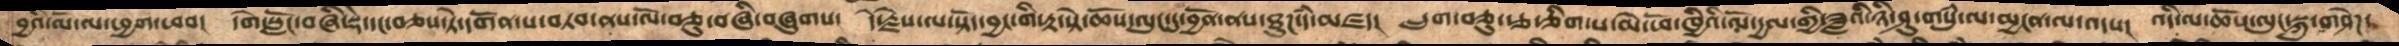བྱའི་ལོ་ལ་ཕྱག་ཕབ།  དགེ་སློང་བཞི་སྡེ་དང་བཅས་ཏེ་དགོན་པ་བཏབ་ནས་ལོ་བཅུ་བཞི་བཞུགས།  དེ་རྗེས་ལ་སྟོད་བྱང་གི་རྟ་སྟེ་ཆོས་ལུང་དུ་བྱོན་ནས་ཐུཌ་དཾ་མཛད།  དྲུག་བཅུ་རྩ་ཅིག་པ་མེ་ཕོ་ཁྱིའི་ལོ་དྱལ་གྱི་ཟླའི་ཉི་ཤུ་གསུཾ་ལ་མྱངན་ལ་འདས།  འདི་ལ་ཆོས་ལུང་སྐུ་གཤེཌ་
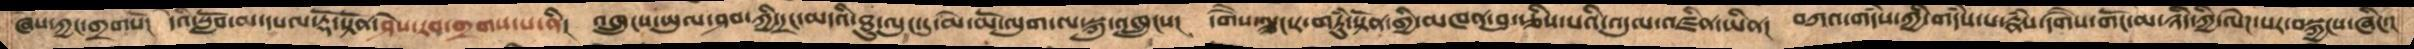ཞེས་ཀྱང་གྲགསོ།  དེའི་སློབ་མ་དཔལ་རྡོ་སྟོན་ཤེས་རབ་གྲགས་པ་ནི།  འཁྲུངས་ཡུལ་ཤབ་ཀྱི་དྲང་མདའི་ཐུ་ལུང་དུ་མེ་མོ་ལུག་ལ་སྐུ་འཁྲུངས།  དགཻས་ལྕང་ར་གཏུཾ་སྟོན་གྱི་མཁན་བུ་རྩིས་པའི་འདུལ་འཛིན་ཡིན།  བཀའ་གདཾས་ཀྱི་གདཾས་པ་རྣཾས་དགཻས་གོང་མ་ཉིད་ཀྱི་ལེཌ་པར་བསྐྱངས་ཞིང་།
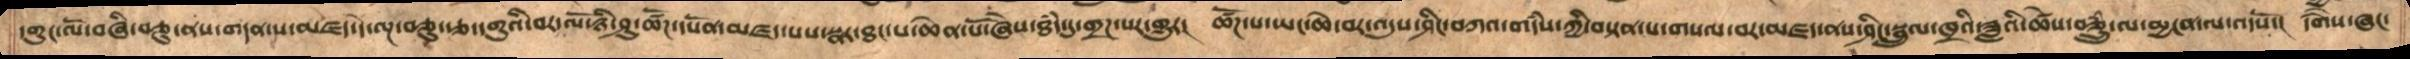དགུང་ལོ་བཞི་བཅུ་ནས་གདན་ས་མཛད་དེ་ལྔ་བཅུ་རྩ་དགུའི་བར་ལོ་ཉི་ཤུ་ཚོཌ་དཔོན་མཛད་པས་སྣར་ཐང་པ་ཆེན་པོ་ཞེས་ཐཾད་དུ་གྲཌ་པར་གྱུར།  ཚོཌ་པ་ཡང་ཆེ་བར་འདུས་ཤིང་བཀའ་གདཾས་ཀྱི་བསྟན་པ་གསལ་བར་མཛད་ནས་ཤིང་སྦྲུལ་ཁྲའི་ཟླའི་ཚེས་བཅྲུཾ་ལ་མྱངན་ལ་འདསོ་།  དགཻས་ཞང་
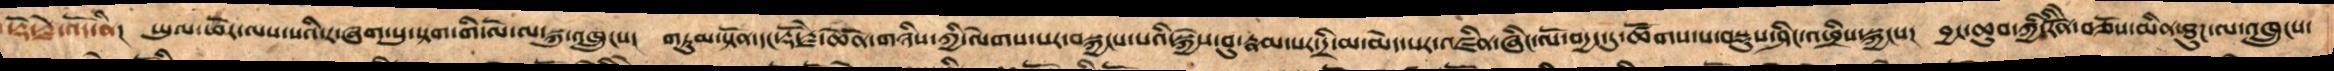་རྡོ་རྗེ་འོད་ནི།   ཡུལ་ཕོར་ལས་པའི་ར་ཞག་སུ་སྟག་གི་ལོ་ལ་སྐུ་འཁྲུངས།   གཏུམ་སྟོན་དདང་རྡོ་རྗེ་ཆེནོ་གཉིས་ཀྱི་ལེགས་པར་བསྐྱངས་པའི་སྐྱེས་བུ་རྣམ་པར་དྲི་མ་མེད་པར་འཛིན་ཞིང་ལོ་བདྱད་དུ་ཚོགས་པ་བསྡུས་ཤིང་འཕྲིས་སྐྱངས།  བྱང་ཆུབ་ཀྱི་རིནོི་བཅོས་མིན་ཐུཌ་ལ་འཁྲུངས་
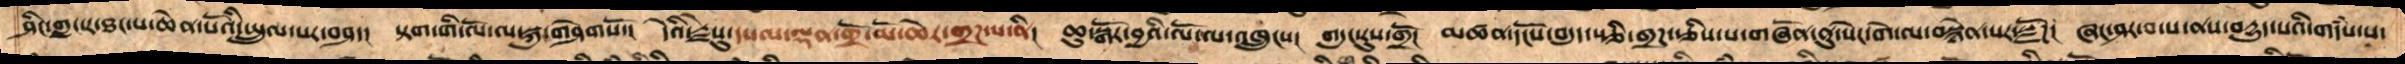ཤིང་གླང་ར་ཐང་པ་ཆེན་པོའི་སྤྲུལ་པར་བཤད།  སྟག་གི་ལོ་ལ་སྐུ་གཤེགསོ་།  དེའི་རྗེསུ་དཔལ་ལྡན་གྲོ་མོ་ཆེར་གྲཌ་པ་ནི།  ཆུ་སྒོར་བྱའི་ལོ་ལ་འཁྲུངས།  གདུང་རུས་་གྲོ།  མཚན་དོངས་བདུད་སྩི་གྲཌ་ཅིས་པ་གཞོན་ནུ་སེང་གེ་ལ་བསྙེན་པར་སྫོཌ།  ཞང་ཤར་བ་པ་ནསབདྱུད་པའི་གདཾས་པ་
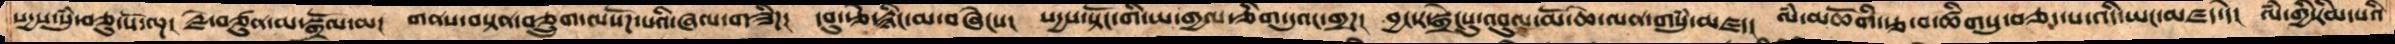སདྱས་་སུཾ་བཅུ་སོ་ལྔ།  རྗེ་བཙུན་མ་སྒྲོལ་མ།  གནས་བསྟན་བཅྲུག་ལསོཌ་པའི་ཞལ་གཟིཌ།  དབུ་རྩེ་རྙིང་མ་བཞེངས།  སདྱས་སྟོང་གི་ཡ་གྱལ་ཅིག་དུའང་གྲཌ།  བྱང་ར་སྒྲེངསུ་འབུལ་མོ་ཆེ་ལན་གསུཾ་མཛད། ལཾ་མཆོགི་རྩ་བ་ཚིགསུ་བཅད་པ་འདི་ཡང་མཛད་དེ།  ལཾ་གྱི་རིམ་པའི
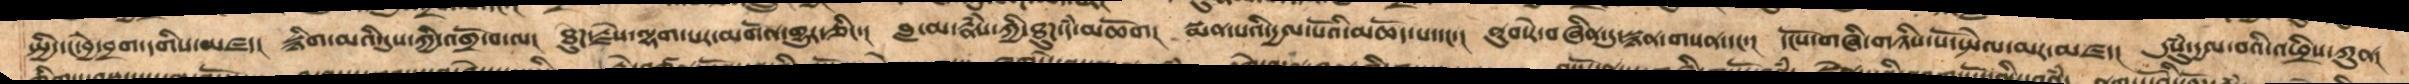སྤྱི་དང་བྱེ་བྲག་དགིས་མཛད།  སྙིག་མའི་དུས་ཀྱི་འགྲོ་བ་ལ།  ཐུཌ་རྗེས་ལྷག་པར་མགོན་གྱུར་ཅིང་།  བླ་མ་རྣཾས་ཀྱི་ཐུཌ་དཾ་མཆོག།  སྨན་པའི་དྱལ་པོའི་མཆོད་པ་དང་།  ནུབ་རེ་བཞིན་དུ་སྙན་གསན་དང་།   དངོས་གཞི་གཉིས་པོ་སྤེལ་མར་མཛད།  དུསུཾ་དྱལ་བའི་འཕྲིས་ཀུན།
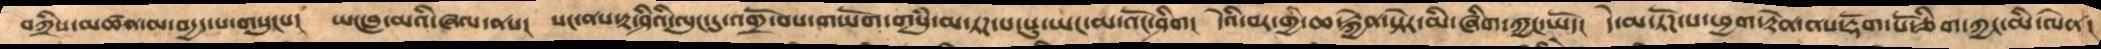བཀྲ་ཤིས་མཚན་མ་བདྱད་པ་གསུངས།  ཡང་བླ་མའི་ཞལ་ནས།  སང་ནས་རྟ་ཤིའི་ལུང་དུ་འགྲོ་བས་གཡོག་གསུཾ་མ་ཏཌ་པ་སུཡང་མ་འོང་ཤིག  དེའི་བར་གྱི་ཆ་རྐྱེན་སྟེར་མི་ཞིག་ཀྱང་ཡོད།  དེ་མ་ཏོཌ་པ་ཕྱག་རྟེན་ནས་རྡོག་པོ་ཅིག་ཀྱང་མི་ལེན།
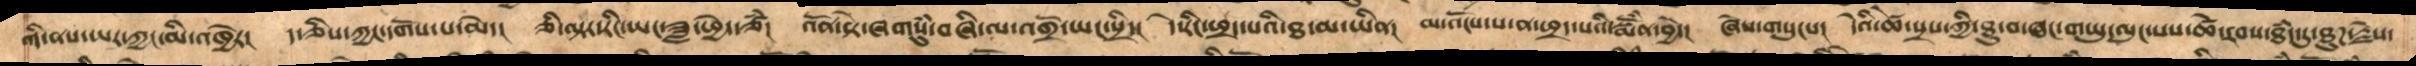གི་ནས་ཡར་ཀྱང་མི་འཁྱེར།  ད་ཅིས་ཀྱང་དགོས་པ་མེད།  ཅི་ལྟར་རིང་ཡང་ཟླ་ཕྱེད་ཙཾ།  འོན་སྟེ་ཞགསུཾ་བཞི་ལ་འགྲོ་ཡང་སྲིད།   དེ་རིང་ཕྲད་པའི་ཐ་མ་ཡིན།  མ་འོངས་པ་ན་ཕྲད་པའི་སྨོཾན་བྱེད།   ཞེས་གསུངས།  དེའི་ཚེ་སྲས་ཀྱི་ཐུ་བ་ཞང་གཡུ་ལུང་པས་ཚེ་རབས་ཐཾད་དུ་ཐུཌ་རྗེས་
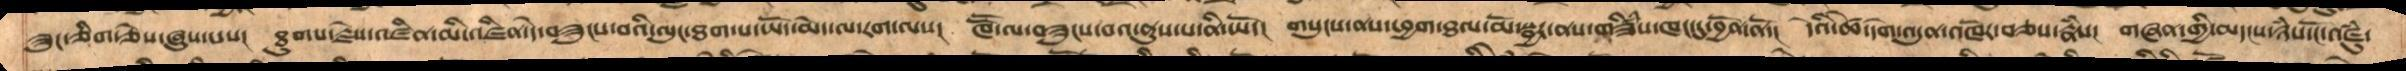ཟུང་ཅིག་ཅེས་ཞུས་པས།   ཐུགས་རྗེས་འཛིན་མི་འཛིན་དེ་བཟུངས་བའི་ལུང་ཐག་པ་ཡོད་མེད་ལ་རག་ལས།   ཁཽ་ལ་བཟུངས་བའ་ནུས་པ་ནི་ཡོད།   གསུངས་ནས་ཕྱག་ཐལ་མོ་སྦྱར་ནས་གཟིཾས་ཁང་དུ་བྱོན་ནོ་།   དེའི་ཚེ་དགེ་འདུན་འཁོར་བཅས་རྣཾས།   གཞན་གྱི་མདངས་ཉཾས་ངོ་འཛུཾ་
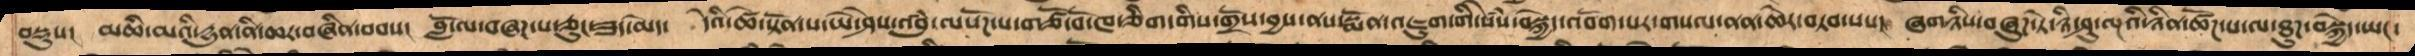བསྡུས།  མཆི་མའི་དྱུན་ནི་ཆར་བཞིན་བབས།  བློ་ལ་བཞཌ་པ་ཅུང་ཟད་མེད།  དེའི་ཚེ་སྟོན་པ་ཡཻས་འབུཾ་ལསོཌ་པ་གཙོ་བོ་ཁ་ཅིག་གིས་གྲོས་བྱས་ནས་སྨོན་འཇུག་གི་སེཾས་བསྐྱེད་འབོག་པར་གསལ་ནན་ཆེར་བཏབ་པས།  ཞགཉིས་བཞུཌ་ཏེ་ཉི་ཤུ་ལྔའི་ཉིན་ཚོཌ་པ་ལ་ཐུཌ་བསྐྱེད་ཡང་
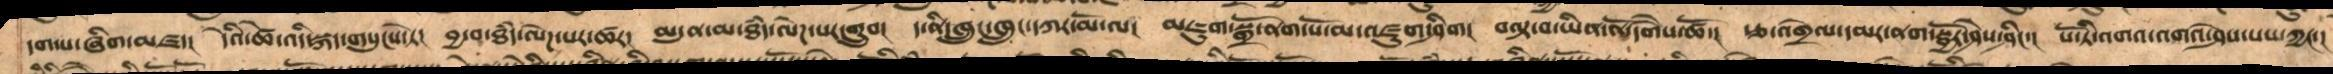དག་པ་ཞིག་མཛད།  དེའི་ཚེ་འདི་སྐད་གསུངས་ཏེ།  བྱ་བ་ཐཾད་ལེཌ་པར་ཚར།  མདུན་མ་ཐཾད་ལེཌ་པར་གྲུབ།  ད་ནི་ཁྲུང་ཁྲུང་དཀར་མོ་ལ།  མཇུག་སྒྲོ་ནག་པོ་མ་འཛུག་ཤིག།  བལྟ་བ་ཡིན་ནོ་དགཻས་ཚོ་།  རྩ་འགྲེལ་དམར་ནག་སྦྱོར་ཤེས་ཤིང་།  པོ་ཏི་འགའ་འགའ་ཤེས་པས་ཀྱང་།
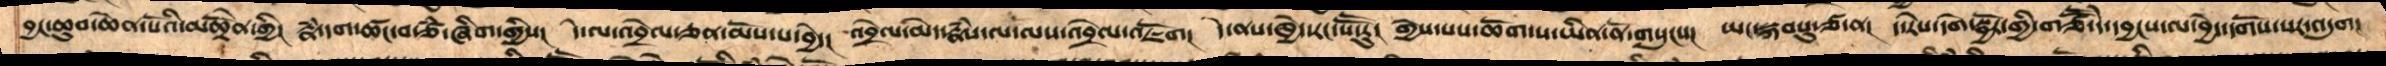བྱང་ཆུབ་ཆེན་པོའི་མཆྟོནེ་གྱི།  རྣཾ་དག་ཚང་བ་ཙཾ་ཞིག་གྱིས།  དེ་ལ་འབྲེལ་ཅན་མོས་པ་བྱེད།  འབྲེལ་མེད་རྣཾས་ལ་ལས་འབྲེལ་འཇོག།   དེ་ནས་ཁྱེད་རང་སཽ་རུ།  གྱེས་པས་ཆོག་ས་ཡིན་ནོ་གསུངས།  ཡང་སྐབསུ་ཙ་ན།  ད་རེས་དགེ་སྦྱོར་གྱི་གཙཽ་དེ་དབྱངས་ལ་བྱེད་དགོས་པར་འདུག།
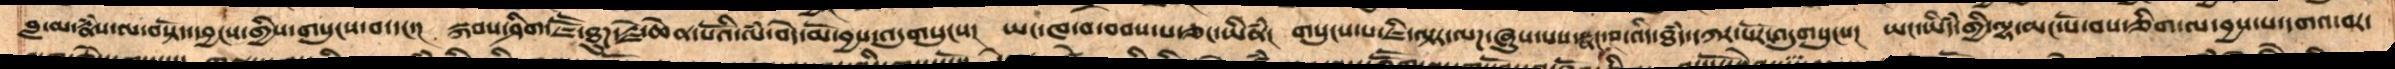བླ་མ་རྣཾས་ལ་བསྟོད་དབྱངས་གྱིས་གསུངས་བ་དང་།  སྐབས་ཤིག་ཇཽ་ཐུཌ་རྗེ་ཆེན་པོའི་ལཾ་བདེ་མོ་བྱས་འདུག་གསུངས།  ཡང་ཁ་བ་བབ་པ་ཅང་ཡིནཾ། གསུངས་པ་ཇི་ལྟར་ལཌ་ཞུས་པས་སྣང་བ་འདི་ཐཾད་དཀར་པོར་འདུགསུངས།  ཡང་ཡིདཾ་གྱི་ལྷ་མང་པོ་བས་ཅིག་ལ་བྱས་པ་དགའ་བར་
